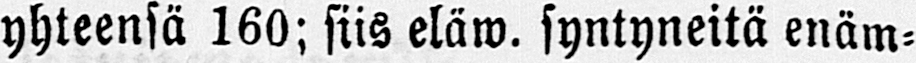yhteensä 160; siis eläw. syntyneitä enäm-
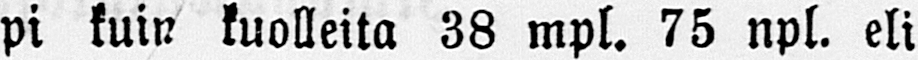pi kuin kuolleita 38 mpl. 75 npl. eli
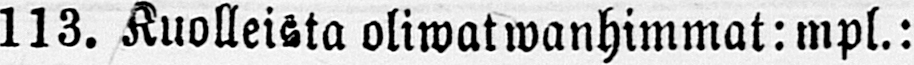113. Kuolleista oliwat wanhimmat: mpl.:
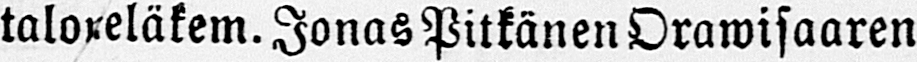taloneläkem. Jonas Pitkänen Orawisaaren
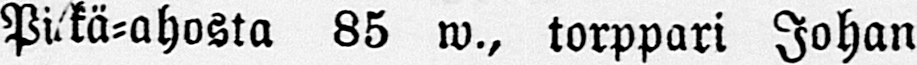Pitkä-ahosta 85 w., torppari Johan
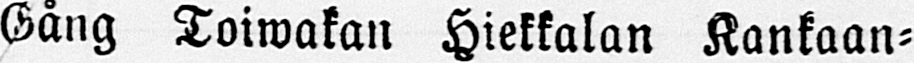Gång Toiwakan Hiekkalan Kankaan-
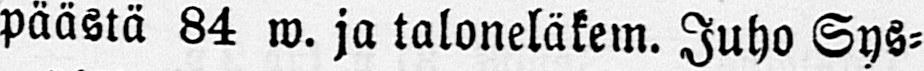päästä 84 m. ja taloneläkem. Juho Sys-
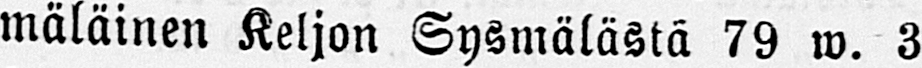mäläinen Keljon Sysmälästä 79 w. 3
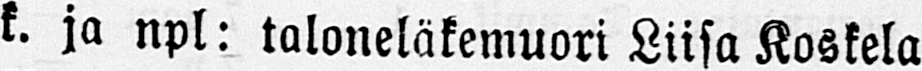k. ja npl: taloneläkemuori Liisa Koskela
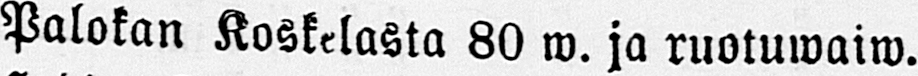Palolan Koskelasta 80 w. ja ruotuwaiw.
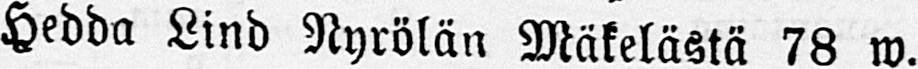Hedda Lind Nyrölän Mäkelästä 78 m.
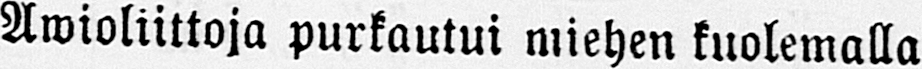Awioliittoja purkautui miehen kuolemalla
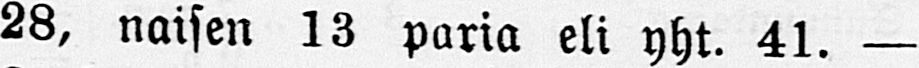28, naisen 13 paria eli yht. 41. —
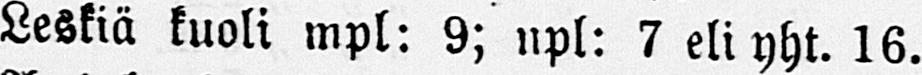Leskiä kuoli mpl: 9; npl: 7 eli yht. 16.
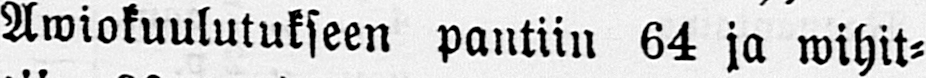Awiokuulutukseen pantiin 64 ja wihit-
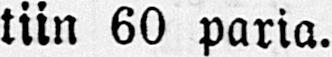tiin 60 paria.
